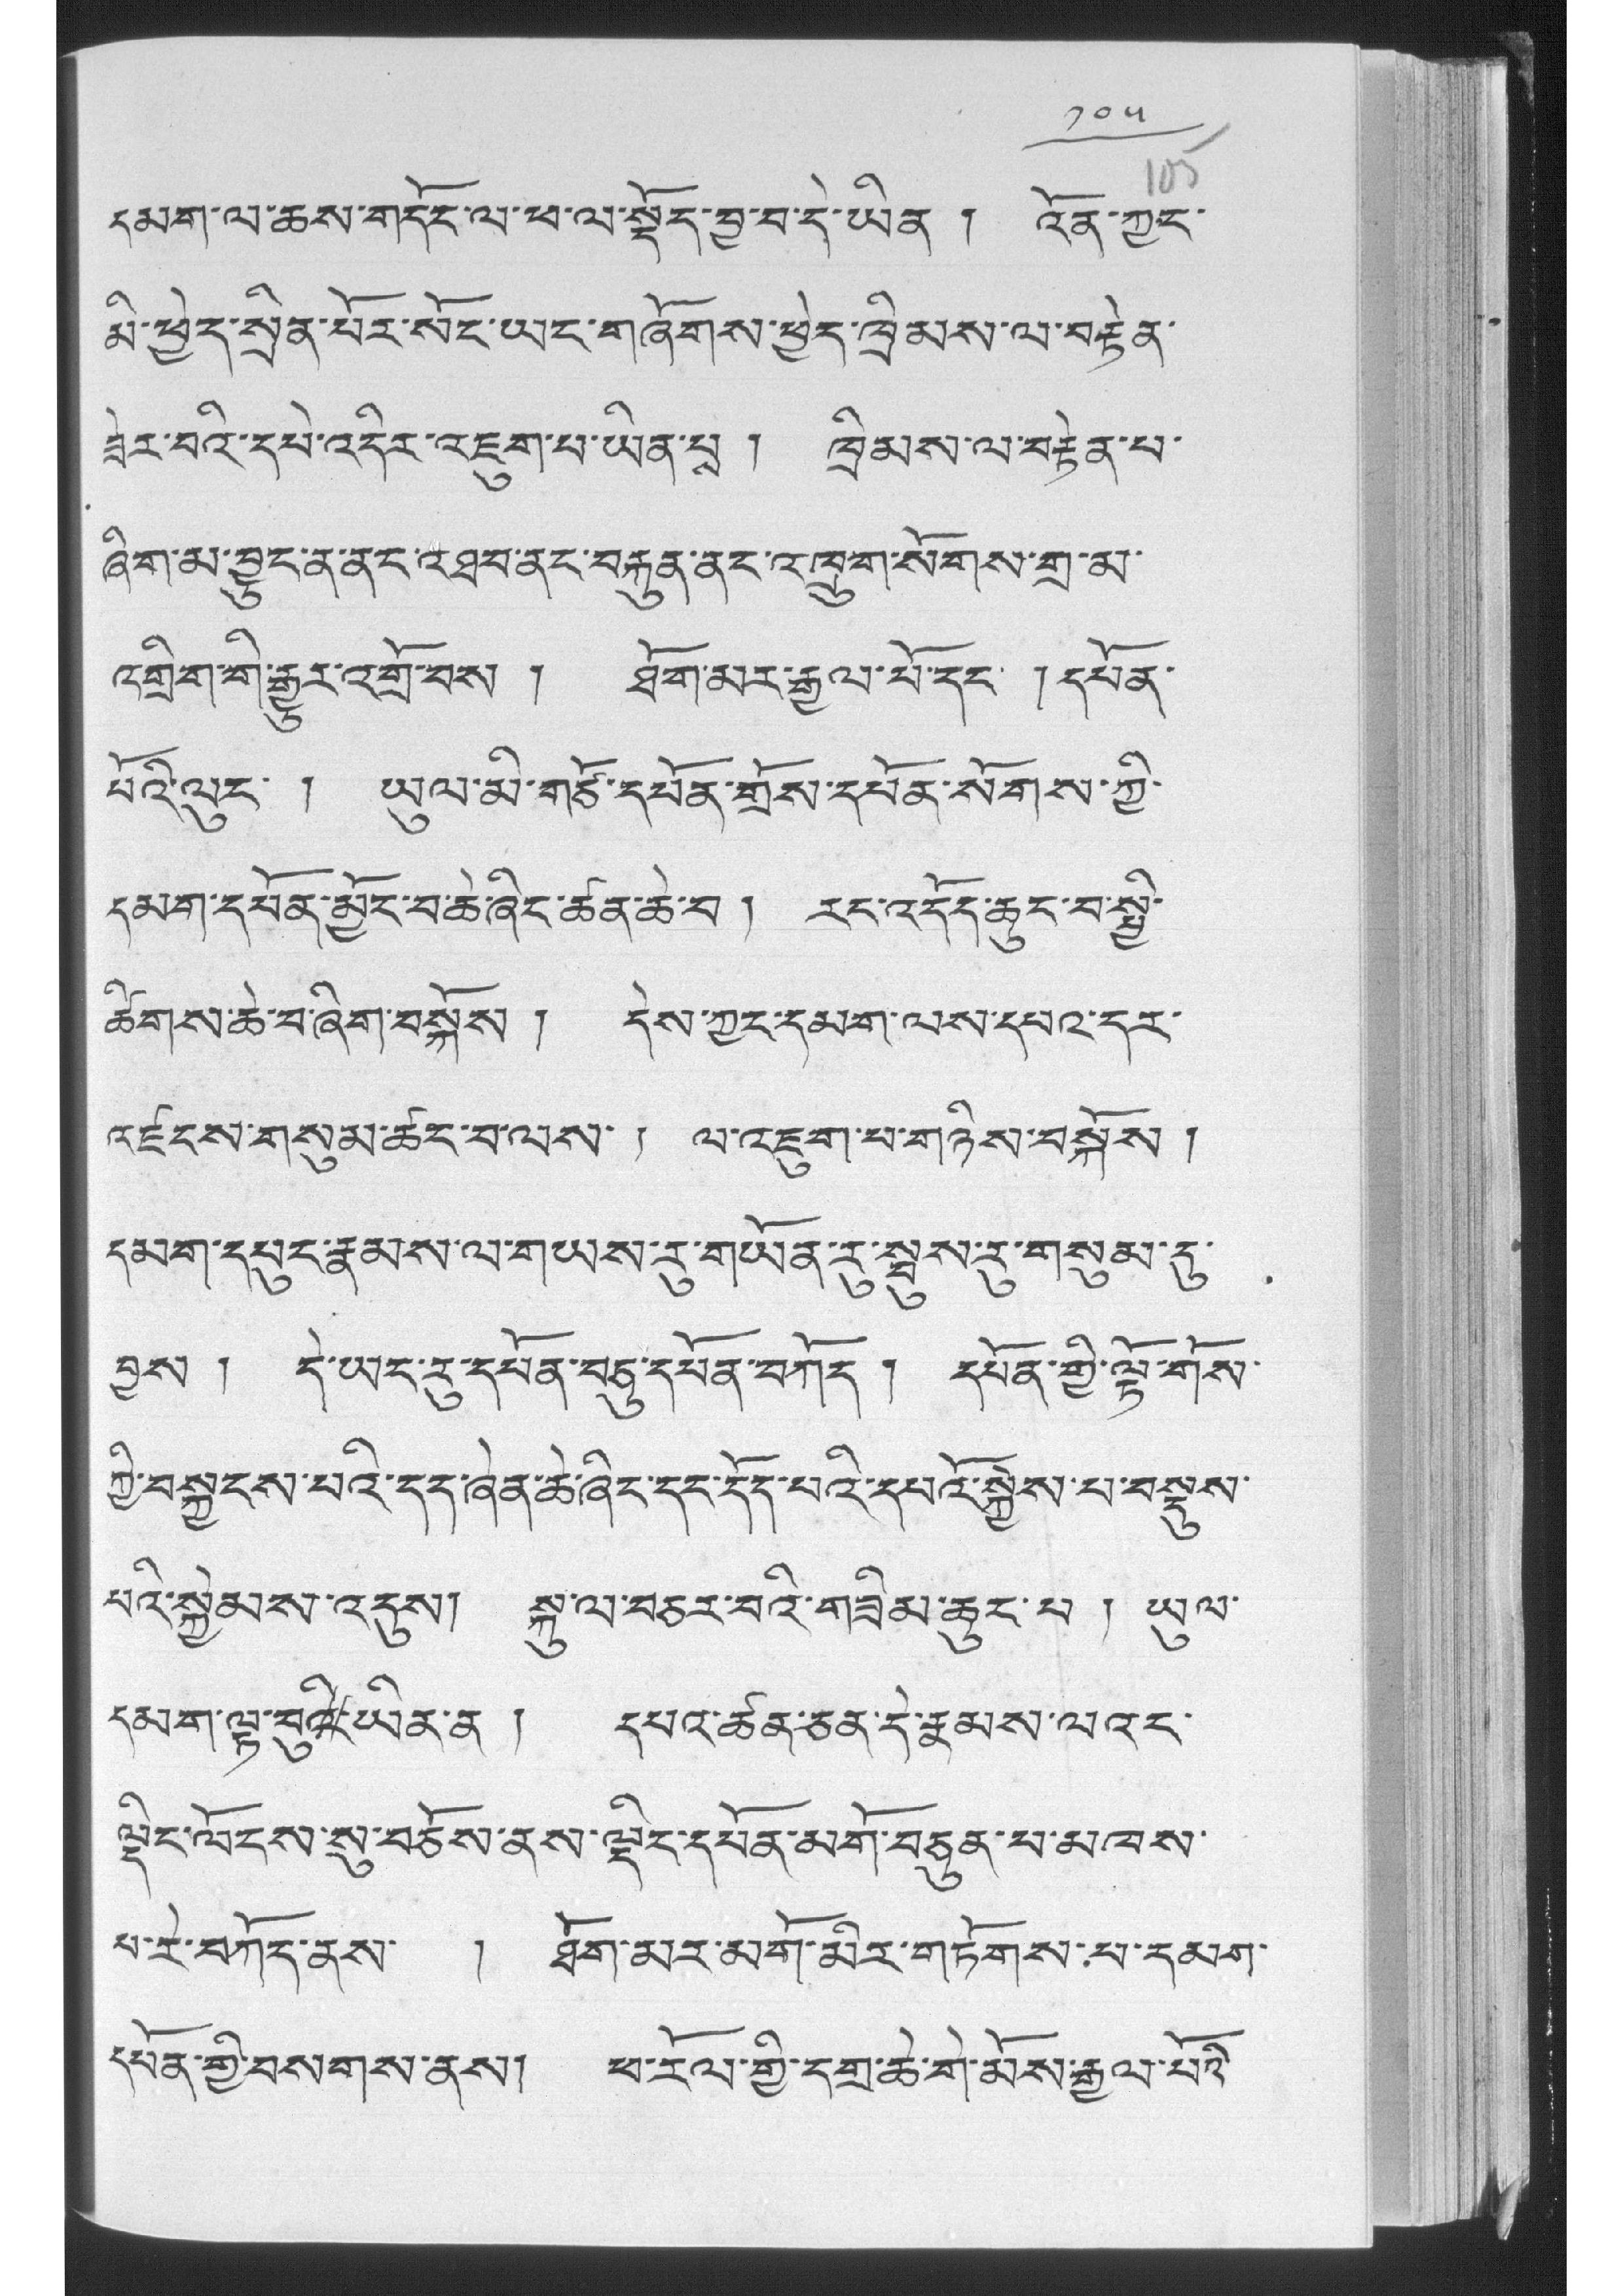༡༠༥
དམག་ལ་ཆས་གདོང་ལ་ཕ་ལ་སྡོད་བྱ་བ་དེ་ཡིན ། འོན་ཀྱང་
མི་ཕྱེད་སྲིན་པོར་སོང་ཡང་གཞོགས་ཕྱེད་ཁྲིམས་ལ་བརྟེན་
ཟེར་བའི་དཔེ་འདིར་འཇུག་པ་ཡིན་པྶ ། ཁྲིམས་ལ་བརྟེན་པ་
ཞིག་མ་བྱུང་ན་ནང་འཐབ་ནང་བརྐུན་ནང་འཁྲུག་སོགས་གྲ་མ་
འགྲིག་གི་རྒྱུར་འགྲོ་བས ། ཐོག་མར་རྒྱལ་པོ་དང་ ། དཔོན་
པོའི་ལུང་ ། ཡུལ་མི་གཙོ་དཔོན་གྲོས་དཔོན་སོགས་ཀྱི་
དམག་དཔོན་མྱོང་བ་ཆེ་ཞིང་ཚན་ཆེ་བ ། རང་འདོད་ཆུང་བ་སྤྱི་
ཚོགས་ཆེ་བ་ཞིག་བསྐོས ། དེས་ཀྱང་དམག་ལས་དཔའ་དར་
འཛངས་གསུམ་ཚང་བ་ལས་ ། ལ་འཇུག་པ་གཉིས་བསྐོས །
དམག་དཔུང་རྣམས་ལ་གཡས་རུ་གཡོན་རུ་སྦུས་རུ་གསུམ་དུ་
བྱས ། དེ་ཡང་རུ་དཔོན་བཅུ་དཔོན་བཀོད ། དཔོན་གྱི་ལྟོ་གོས་
ཀྱི་བསྐྱངས་པའི་དད་ཞེན་ཆེ་ཞིང་དང་དོད་པའི་དཔའོ་སྐྱེས་པ་བསྡུས་
པའི་སྐྱེམས་འདུས། སྐུ་ལ་བཅར་བའི་གཟིམ་ཆུང་པ ། ཡུལ་
དམག་ལྟ་བུའི་ཡིན་ན ། དཔའ་ཚན་ཅན་དེ་རྣམས་ལའང་
ལྡིང་ལོངས་སུ་བཅོས་ནས་ལྡིང་དཔོན་མགོ་བཅུན་པ་མཁས་
པ་རེ་བཀོད་ནས་ ། ཐོག་མར་མགོ་མིར་གཏོགས་པ་དམག་
དཔོན་གྱི་བསགས་ནས། ཕ་རོལ་གྱི་དགྲ་ཆེ་གེ་མོས་རྒྱལ་པོའི་
